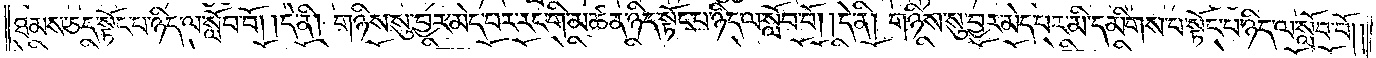ཐམས་ཅད་སྟོང་པ་ཉིད་ལ་སློབ་བོ། །དེ་ནི། གཉིས་སུ་བྱར་མེད་པར་རང་གི་མཚན་ཉིད་སྟོང་པ་ཉིད་ལ་སློབ་བོ། །དེ་ནི། གཉིས་སུ་བྱར་མེད་པར་མི་དམིགས་པ་སྟོང་པ་ཉིད་ལ་སློབ་བོ༎
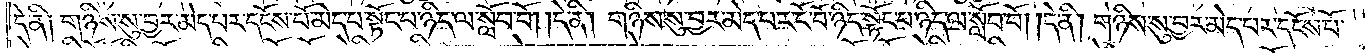དེ་ནི། གཉིས་སུ་བྱར་མེད་པར་དངོས་པོ་མེད་པ་སྟོང་པ་ཉིད་ལ་སློབ་བོ། །དེ་ནི། གཉིས་སུ་བྱར་མེད་པར་ངོ་བོ་ཉིད་སྟོང་པ་ཉིད་ལ་སློབ་བོ། །དེ་ནི། གཉིས་སུ་བྱར་མེད་པར་དངོས་པོ་
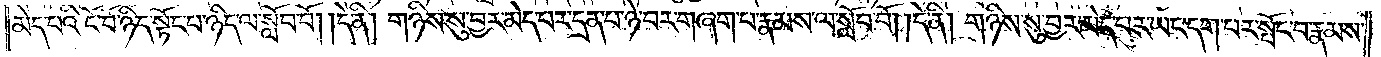མེད་པའི་ངོ་བོ་ཉིད་སྟོང་པ་ཉིད་ལ་སློབ་པོ། །དེ་ནི། གཉིས་སུ་བྱེར་མེད་པར་དྲན་པ་ཉེ་བར་བཞག་པ་རྣམས་ལ་སློབ་བོ། །དེ་ནི། གཉིས་སུ་བྱར་མེད་པར་ཡང་དག་པར་སྤོང་བ་རྣམས་
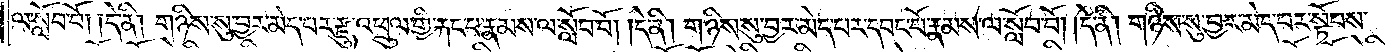ལ་སློབ་བོ། །དེ་ནི། གཉིས་སུ་བྱར་མེད་པར་རྫུ་འཕྲུལ་གྱི་རྐང་པ་རྣམས་ལ་སློབ་པོ། །དེ་ནི། གཉིས་སུ་བྱར་མེད་པར་དབང་པོ་རྣམས་ལ་སློབ་བོ། །དེ་ནི། གཉིས་སུ་བྱར་མེད་པར་སྟོབས་
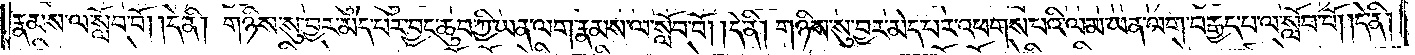རྣམས་ལ་སློབ་བོ། །དེ་ནི། གཉིས་སུ་བྱར་མེད་པར་བྱང་ཆུབ་ཀྱི་ཡན་ལག་རྣམས་ལ་སློབ་བོ། །དེ་ནི། གཉིས་སུ་བྱར་མེད་པར་འཕགས་པའི་ལམ་ཡན་ལག་བརྒྱད་པ་ལ་སློབ་བོ། །དེ་ནི།
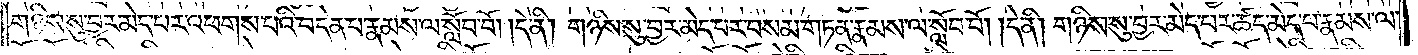གཉིས་སུ་བྱར་མེད་པར་འཕགས་པའི་བདེན་པ་རྣམས་ལ་སློབ་བོ། །དེ་ནི། གཉིས་སུ་བྱར་མེད་པར་བསམ་གཏན་རྣམས་ལ་སློབ་བོ། །དེ་ནི། གཉིས་སུ་བྱར་མེད་པར་ཚད་མེད་པ་རྣམས་ལ་
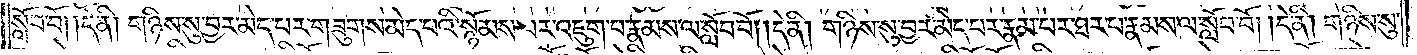སློབ་བོ། །དེ་ནི། གཉིས་སུ་བྱར་མེད་པར་གཟུགས་མེད་པའི་སྙོམས་པར་འཇུག་པ་རྣམས་ལ་སློབ་བོ། །དེ་ནི། གཉིས་སུ་བྱར་མེད་པར་རྣམ་པར་ཐར་པ་རྣམས་ལ་སློབ་བོ། །དེ་ནི། གཉིས་སུ་
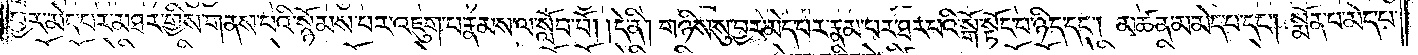བྱར་མེད་པར་མཐར་གྱིས་གནས་པའི་སྙོམས་པར་འཇུག་པ་རྣམས་ལ་སློབ་བོ། །དེ་ནི། གཉིས་སུ་བྱར་མེད་པར་རྣམ་པར་ཐར་པའི་སྒོ་སྟོང་པ་ཉིད་དང༌། མཚན་མ་མེད་པ་དང༌། སྨོན་པ་མེད་པ་
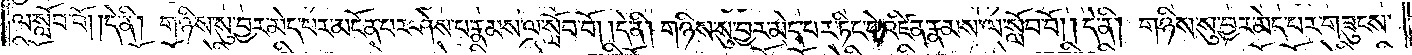ལ་སློབ་བོ། །དེ་ནི། གཉིས་སུ་བྱར་མེད་པར་མངོན་པར་ཤེས་པ་རྣམས་ལ་སློབ་བོ། །དེ་ནི། གཉིས་སུ་བྱར་མེད་པར་ཏིང་ངེ་འཛིན་རྣམས་ལ་སློབ་བོ། །དེ་ནི། གཉིས་སུ་བྱར་མེད་པར་གཟུངས་
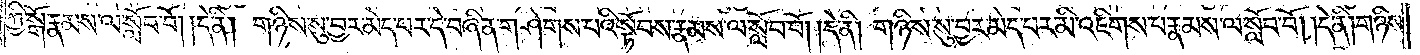ཀྱི་སྒོ་རྣམས་ལ་སློབ་བོ། །དེ་ནི། གཉིས་སུ་བྱར་མེད་པར་དེ་བཞིན་གཤེགས་པའི་སྟོབས་རྣམས་ལ་སློབ་བོ། །དེ་ནི། གཉིས་སུ་བྱར་མེད་པར་མི་འཇིགས་པ་རྣམས་ལ་སློབ་བོ། །དེ་ནི། གཉིས་
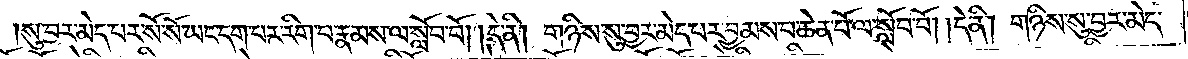སུ་བྱར་མེད་པར་སོ་སོ་ཡང་དག་པར་རིག་པ་རྣམས་ལ་སློབ་བོ། །དེ་ནི། གཉིས་སུ་བྱར་མེད་པར་བྱམས་པ་ཆེན་པོ་ལ་སློབ་བོ། །དེ་ནི། གཉིས་སུ་བྱར་མེད་
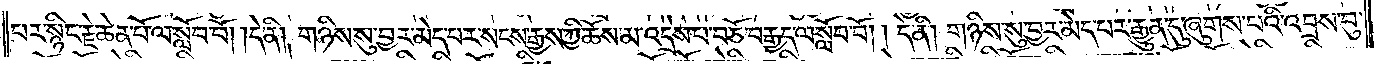པར་སྙིང་རྗེ་ཆེན་པོ་ལ་སློབ་བོ། །དེ་ནི། གཉིས་སུ་བྱར་མེད་པར་སངས་རྒྱས་ཀྱི་ཆོས་མ་འདྲེས་པ་བཅོ་བརྒྱད་ལ་སློབ་བོ། །དེ་ནི། གཉིས་སུ་བྱར་མེད་པར་རྒྱུན་དུ་ཞུགས་པའི་འབྲས་བུ་
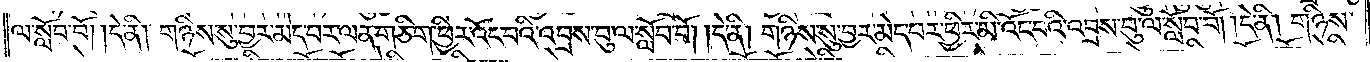ལ་སློབ་བོ། །དེ་ནི། གཉིས་སུ་བྱར་མེད་པར་ལན་ཅིག་ཕྱིར་འོང་བའི་འབྲས་བུ་ལ་སློབ་བོ། །དེ་ནི། གཉིས་སུ་བྱར་མེད་པར་ཕྱིར་མི་འོང་པའི་འབྲས་བུ་ལ་སློབ་བོ། །དེ་ནི། གཉིས་
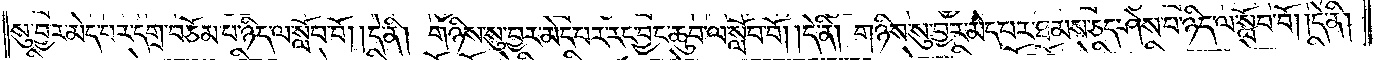སུ་བྱར་མེད་པར་དགྲ་བཅོམ་པ་ཉིད་ལ་སློབ་བོ། །དེ་ནི། གཉིས་སུ་བྱར་མེད་པར་རང་བྱང་ཆུབ་ལ་སློབ་བོ། །དེ་ནི། གཉིས་སུ་བྱར་མེད་པར་ཐམས་ཅད་ཤེས་པ་ཉིད་ལ་སློབ་བོ། །དེ་ནི།
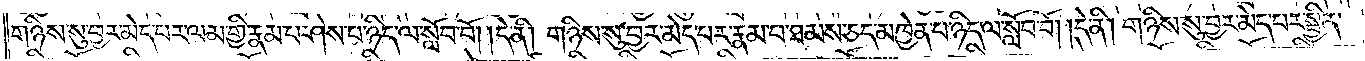གཉིས་སུ་བྱར་མེད་པར་ལམ་གྱི་རྣམ་པ་ཤེས་པ་ཉིད་ལ་སློབ་བོ། །དེ་ནི། གཉིས་སུ་བྱར་མེད་པར་རྣམ་པ་ཐམས་ཅད་མཁྱེན་པ་ཉིད་ལ་སློབ་བོ། །དེ་ནི། གཉིས་སུ་བྱར་མེད་པར་སྦྱིན་
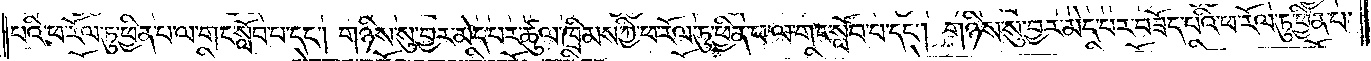པའི་ཕ་རོལ་ཏུ་ཕྱིན་པ་ལ་གང་སློབ་པ་དང༌། གཉིས་སུ་བྱར་མེད་པར་ཚུལ་ཁྲིམས་ཀྱི་ཕ་རོལ་ཏུ་ཕྱིན་པ་ལ་གང་སློབ་པ་དང༌། གཉིས་སུ་བྱར་མེད་པར་བཟོད་པའི་ཕ་རོལ་ཏུ་ཕྱིན་པ་
